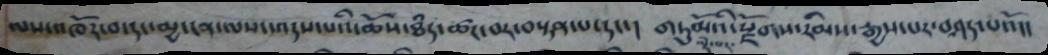ལས་འཁོར་བ་དང་མྱ་ངག་ལས་འདས་པའི་ཆོས་ཐཾད་ཚང་བར་བསྟན་པ་དང་།  གཏུམོའི་རྫོགས་རིམས་རྒྱས་པར་བཤད་པའོ།།
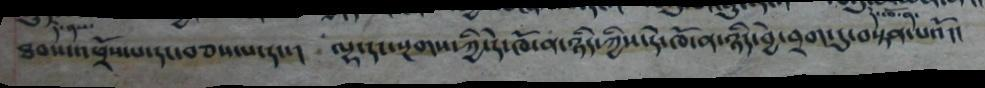ཐབས་འཕྲོས་པ་དང་བཅས་པ་དང་།   ལྷ་དང་སྔགས་ཀྱི་དེ་ཁོ་ན་ཉིད་ཀྱིས་དེ་ཁོ་ན་ཉིད་བྱེ་བྲག་དུ་བསྟན་པའོ།།
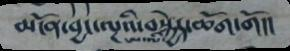མངོན་བྱང་ལྔའི་བསྐྱེད་ཆོག་གོ།།
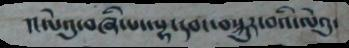།།ལེའུ་བཞི་པ་ལྷ་དབང་བསྐུར་བའི་ལེའུ་
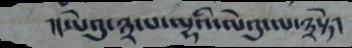།།ལེའུ་༣་པ་ལྷའི་ལེའུ་ལ་༣སྟེ།
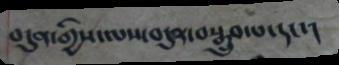བདུན་གྱིས་ལས་བདུན་བསྒྲུབ་པ་དང་།
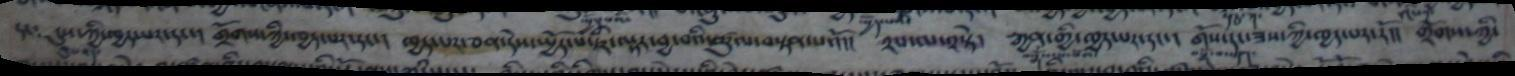དང༴   དུས་ཀྱི་ཁྱད་པར་དང་།   གྲོགས་ཀྱི་ཁྱད་པར་དང་།   ཁྱད་པར་ཅན་དེས་སྤྱོད་པ་ཇི་ལྟར་ཕྱ་བའི་ཚུལ་བསྟན་པའོ།།   ༢པ་ལ་༢སྟེ།  རྒྱན་གྱི་ཁྱད་པར་དང་།   གོས་དང་ཟས་ཀྱི་ཁྱད་པར་རོ།།   གྲོགས་ཀྱི་
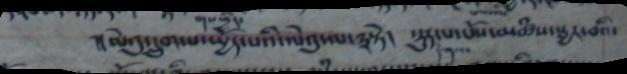།།  ལེའུ་དྲུག་པ་སྤྱོད་པའི་ལེའུ་ལ་༣སྟེ།  སྡུད་པ་པོས་མཚཾས་སྦྱར་བའི་
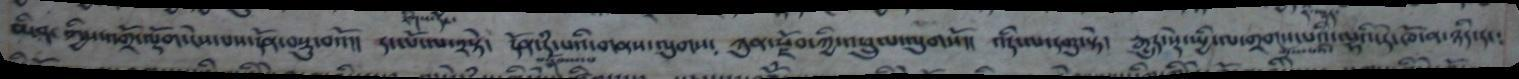ཡིན་ཀྱིས་འགྲོ་ལྡོག་ངེས་པས་དོན་བསྡུ་བའོ།།  དང་པོ་ལ་༢སྟེ།  དོན་དཾ་པའི་གནས་ལུགས༴  ཀུན་རྫོབ་ཀྱིས་འཕྲུལ་ལུགསོ།།  འདིས་ལ་དགུ་སྟེ།  རྒྱུད་སྡེ་སྤྱི་ལ་གྲགས་པའི་ལྷའི་དེ་ཁོ་ན་ཉིད་དང༴
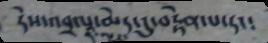དེས་འབྲལ་མེད་དུ་བརྟེན་པ་དང༴
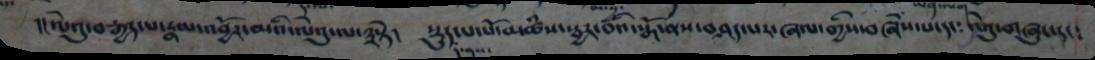།།ལེའུ་བརྒྱད་པ་རྣལ་འབྱོར་མའི་ལེའུ་ལ་༣སྟེ།  སྡུད་པ་པོ་མཚཾས་སྦྱར་བའི་སྒོ་ནས་བཤད་པར་ཞལ་གྱིས་བཞེས་པ་དང༴  ལེའུ་གཞུང་དང༴
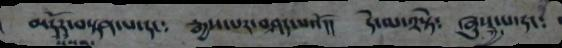མདོར་བསྟན་པ་དང༴  རྒྱས་པར་བཤད་པའོ།།  དེ་ལ་༢སྟེ༴  ཞུས་པ་དང༴
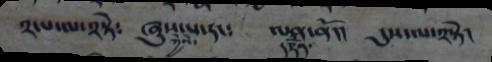༢་པ་ལ་༢སྟེ༴  ཞུས་པ་དང༴  ལན་ནོ།།  དུས་ལ་༢སྟེ།
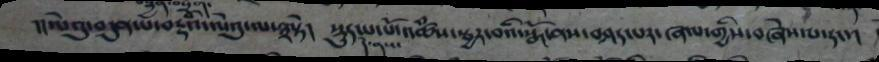།། ལེའུ་བདུན་པ་བརྡའི་ལེའུ་ལ་༣སྟེ།  སྡུད་པ་པོ་འཚཾས་སྦྱར་བའི་སྒོ་ནས་བཤད་པར་ཞལ་གྱིས་བཞེས་པ་དང་།
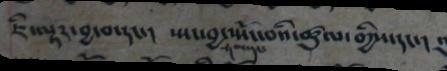ཇི་ལྟར་བྱ་བ་དང་།   སྤང་བྱ་སྤོང་བའི་ཚུལ་གྱིས་དང་།
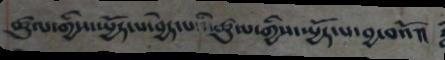ཚུལ་གྱིས་སྤྱོད་པ་བྱེད་པའི་ཚུལ་གྱིས་སྤྱོད་པ་བྱ་བའོ།།
